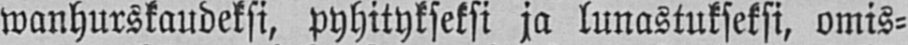wanhurskaudeksi, pyhitykseksi ja lunastukseksi, omis-
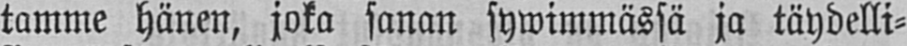tamme hänen, joka sanan sywimmässä ja täydelli-
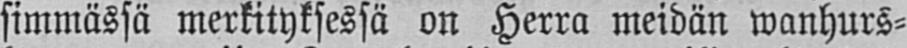simmässä merkityksessä on Herra meidän wanhurs-
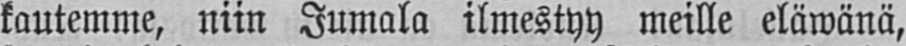kautemme, niin Jumala ilmestyy meille eläwänä,
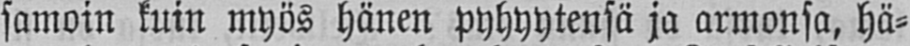samoin kuin myös hänen pyhyytensä ja armonsa, hä-
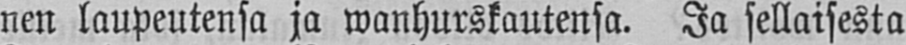nen laupeutensa ja wanhurskautensa. Ja sellaisesta
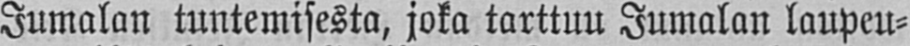Jumalan tuntemisesta, joka tarttuu Jumalan laupeu-
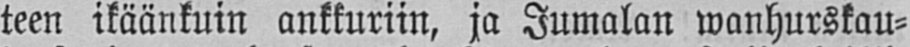teen ikäänkuin ankkuriin, ja Jumalan wanhurskau-
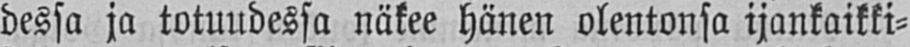dessa ja totuudessa näkee hänen olentonsa ijankaikki-
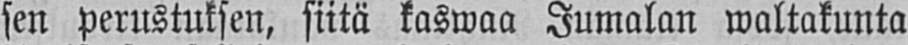sen perustuksen, siitä kaswaa Jumalan waltakunta
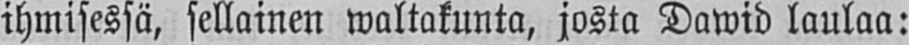ihmisessä, sellainen waltakunta, josta Dawid laulaa:
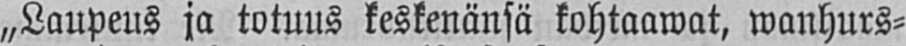„Laupeus ja totuus keskenänsä kohtaawat, wanhurs-
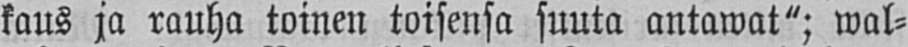kaus ja rauha toinen toisensa suuta antawat"; wal-
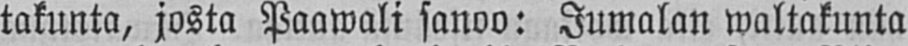takunta, josta Paawali sanoo: Jumalan waltakunta
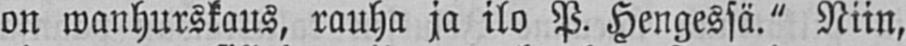on wanhurskaus, rauha ja ilo P. Hengessä." Niin,
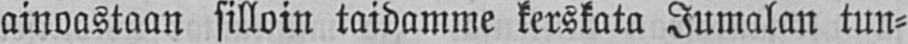ainoastaan silloin taidamme kerskata Jumalan tun-
